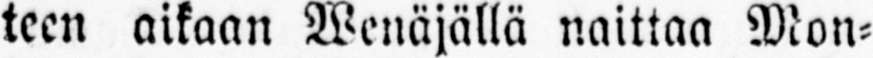teen aikaan Wenäjällä naittaa Mon-
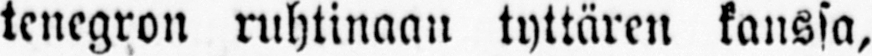tenegron ruhtinaan tyttären kanssa,
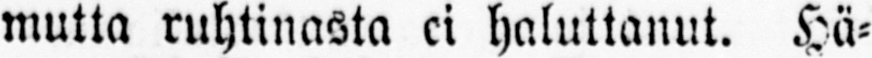mutta ruhtinasta ei haluttanut. Hä-
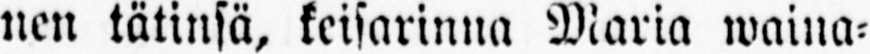nen tätinsä, keisarinna Maria waina-
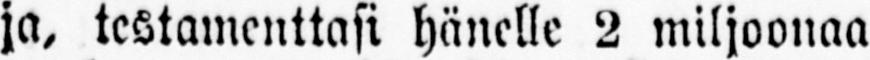ja, testamenttasi hänelle 2 miljoonaa
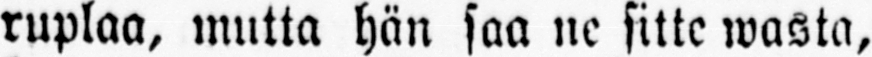ruplaa, mutta hän saa ne sitte wasta,
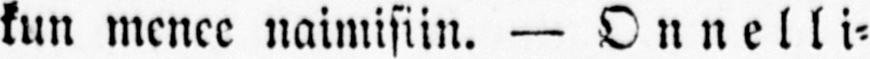kun menee naimisiin. — Onnelli-
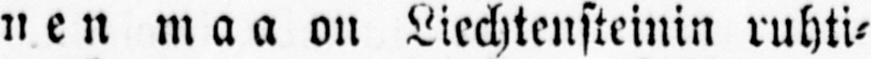nen maa on Liechtensteinin ruhti-
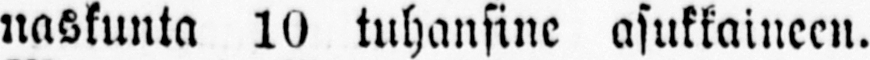naskunta 10 tuhansine asukkaineen.
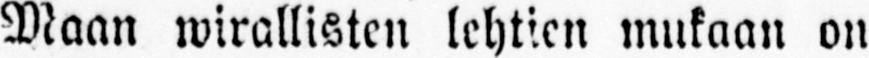Maan wirallisten lehtien mukaan on
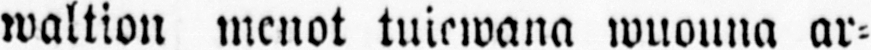waltion menot tulewana wuouna ar-
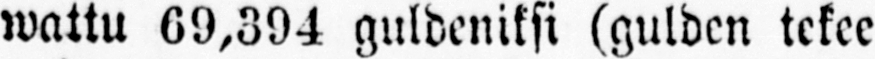wattu 69,394 guldeniksi (gulden tekee
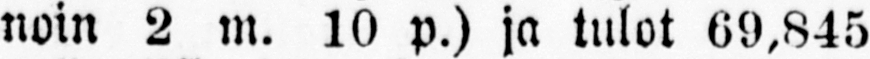noin 2 m. 10 p.) ja tulot 69,845
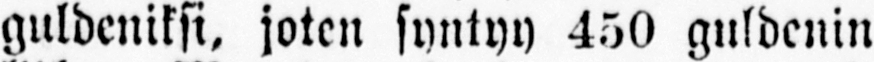guldeniksi, joten syntyy 450 guldenin
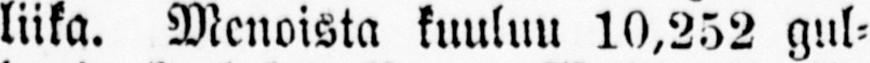liika. Menoista kuuluu 10,252 gul-
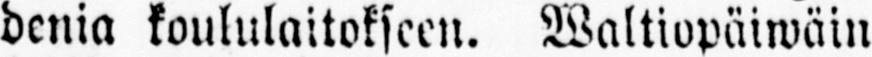denia koululaitokseen. Waltiopäiwäin
